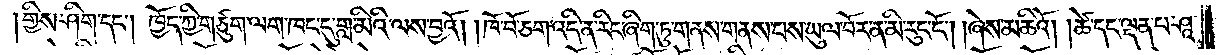།གྱིས་ཤིག་དང༌། ཁྱོད་ཀྱི་གཙུག་ལག་ཁང་དུ་གླ་མིའི་ལས་བྱའོ། །ཁོ་བོ་ཅག་འདི་ན་རིང་ཞིག་ཏུ་གནས་གནས་པས་ཡུལ་བོར་ན་མི་རུང་ངོ༌། །ཞེས་མཆིའོ། །ཚེ་དང་ལྡན་པ་ཤཱ་
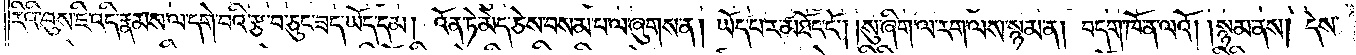རིའི་བུས་ཇི་འདི་རྣམས་ལ་དགེ་བའི་རྩ་བ་ཅུང་ཟད་ཡོད་དམ། འོན་ཏེ་མེད་ཅེས་བསམ་པ་ལ་ཞུགས་ན། ཡོད་པར་མཐོང་ངོ༌། །སུ་ཞིག་ལ་རག་ལས་སྙམ་ན། བདག་ཁོ་ན་ལའོ། །སྙམ་ནས། དེས་
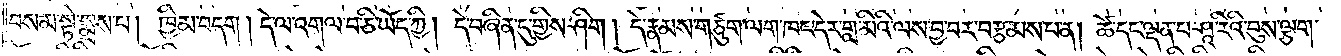བསམ་སྟེ་སྨྲས་པ། ཁྱིམ་བདག །དེ་ལ་འགལ་བ་ཅི་ཡོད་ཀྱི། དེ་བཞིན་དུ་གྱིས་ཤིག །དེ་རྣམས་གཙུག་ལག་ཁང་དེར་གླ་མིའི་ལས་བྱ་བར་བརྩམས་པ་ན། ཚེ་དང་ལྡན་པ་ཤཱ་རིའི་བུས་ལྕག་
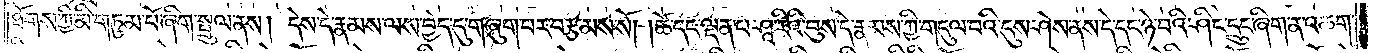ཐོགས་ཀྱི་མི་གཏུམ་པོ་ཞིག་སྤྲུལ་ནས། དེས་དེ་རྣམས་ལས་བྱེད་དུ་གཞུག་པར་བརྩམས་སོ། །ཚེ་དང་ལྡན་པ་ཤཱི་རིའི་བུས་དེ་རྣམས་ཀྱི་གདུལ་བའི་དུས་ཤེས་ནས་དེ་དང་ཉེ་བའི་ཤིང་དྲུང་ཞིག་ན་འཆག་
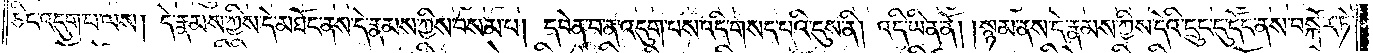ཅིང་འདུག་པ་ལས། དེ་རྣམས་ཀྱིས་དེ་མཐོང་ནས་དེ་རྣམས་ཀྱིས་བསམ་པ། དབེན་པ་ན་འདུག་པས་འདི་གསད་པའི་དུས་ནི། འདི་ཡིན་ནོ། །སྙམ་ནས་དེ་རྣམས་ཀྱིས་དེའི་དྲུང་དུ་དོང་ནས་བསྐོར་ཏེ་
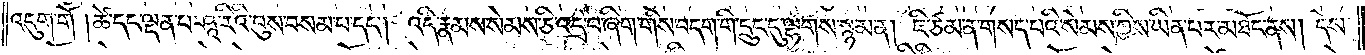འདུག་གོ །ཚེ་དང་ལྡན་པ་ཤཱ་རིའི་བུས་བསམ་པ་དང༌། འདི་རྣམས་སེམས་ཅི་འདྲ་བ་ཞིག་གིས་བདག་གི་དྲུང་དུ་ལྷགས་སྙམ་ན། ཇི་ཙམ་ན་གསད་པའི་སེམས་ཀྱིས་ཡིན་པར་མཐོང་ནས། དེས་
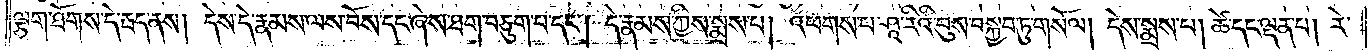ལྕག་ཐོགས་དེ་རྦད་ནས། དེས་དེ་རྣམས་ལས་བོས་དང་ཞེས་ཐག་བཅུག་པ་དང༌། དེ་རྣམས་ཀྱིས་སྨྲས་པ། འཕགས་པ་ཤཱ་རིའི་བུས་བསྐྱབ་ཏུ་གསོལ། །དེས་སྨྲས་པ། ཚེ་དང་ལྡན་པ། རེ་
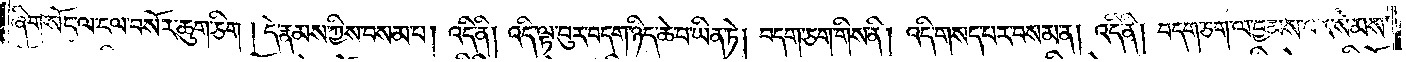ཞིག་སོང་ལ་ངལ་བསོར་ཆུག་ཅིག །དེ་རྣམས་ཀྱིས་བསམ་པ། འདི་ནི། འདི་ལྟ་བུར་བདག་ཉིད་ཆེ་བ་ཡིན་ཏེ། བདག་ཅག་གིས་ནི། འདི་གསད་པར་བསམ་ན། འདི་ནི། བདག་ཅག་ལ་བྱམས་པར་སེམས་
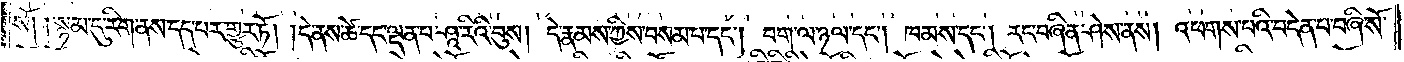སོ། །སྙམ་དུ་རིག་ནས་དད་པར་གྱུར་ཏོ། །དེ་ནས་ཚེ་དང་ལྡན་པ་ཤཱ་རིའི་བུས། དེ་རྣམས་ཀྱིས་བསམ་པ་དང༌། བག་ལ་ཉལ་དང༌། ཁམས་དང༌། རང་བཞིན་ཤེས་ནས། འཕགས་པའི་བདེན་པ་བཞི་སོ་
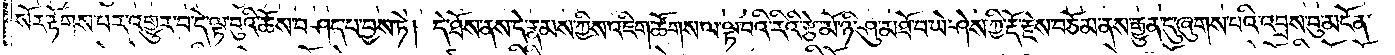སོར་རྟོགས་པར་འགྱུར་བ་དེ་ལྟ་བུའི་ཆོས་བཤད་པ་བྱས་ཏེ། དེ་ཐོས་ནས་དེ་རྣམས་ཀྱིས་འཇིག་ཚོགས་ལ་ལྟ་བའི་རིའི་རྩེ་མོ་ཉི་ཤུ་མཐོ་བ་ཡེ་ཤེས་ཀྱི་རྡོ་རྗེས་བཅོམ་ནས་རྒྱུན་དུ་ཞུགས་པའི་འབྲས་བུ་མངོན་
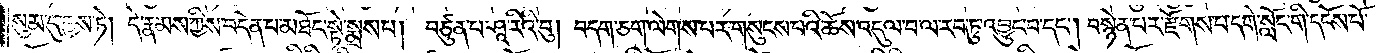སུམ་དུ་བྱས་ཏེ། དེ་རྣམས་ཀྱིས་བདེན་པ་མཐོང་སྟེ་སྨྲས་པ། བཙུན་པ་ཤཱ་རིའི་བུ། བདག་ཅག་ལེགས་པར་གསུངས་པའི་ཆོས་འདུལ་བ་ལ་རབ་ཏུ་འབྱུང་བ་དང༌། བསྙེན་པར་རྫོགས་པ་དགེ་སློང་གི་དངོས་པོ་
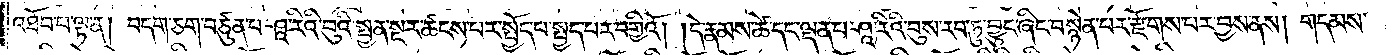འཐོབ་པ་ལྟ་ན། བདག་ཅག་བཙུན་པ་ཤཱ་རིའི་བུའི་སྤྱན་སྔར་ཚངས་པར་སྤྱོད་པ་སྤྱད་པར་བགྱིའོ། །དེ་རྣམས་ཚེ་དང་ལྡན་པ་ཤཱ་རིའི་བུས་རབ་ཏུ་བྱུང་ཞིང་བསྙེན་པར་རྫོགས་པར་བྱས་ནས། གདམས་
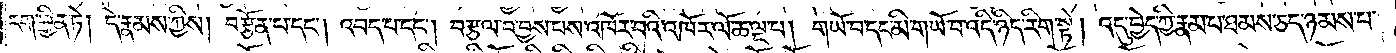ངག་བྱིན་ཏེ། དེ་རྣམས་ཀྱིས། བརྩོན་པ་དང༌། འབད་པ་དང༌། བརྩལ་བ་བྱས་པས་འཁོར་བའི་འཁོར་ལོ་ཆ་ལྔ་པ། གཡོ་བ་དང་མི་གཡོ་བ་འདི་ཉིད་རིག་སྟེ། འདུ་བྱེད་ཀྱི་རྣམ་པ་ཐམས་ཅད་ཉམས་པ་
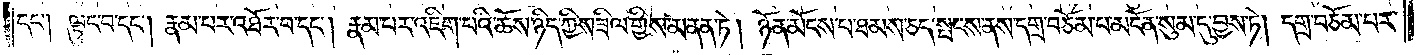དང༌། ལྟུང་བ་དང༌། རྣམ་པར་འཐོར་བ་དང༌། རྣམ་པར་འཇིག་པའི་ཆོས་ཉིད་ཀྱིས་ཟིལ་གྱིས་མནན་ཏེ། ཉོན་མོངས་པ་ཐམས་ཅད་སྤངས་ནས་དགྲ་བཅོམ་པ་མངོན་སུམ་དུ་བྱས་ཏེ། དགྲ་བཅོམ་པར་
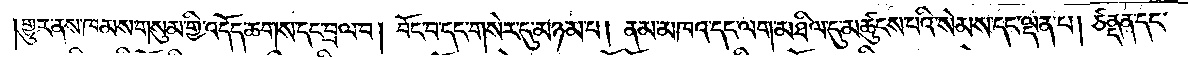གྱུར་ནས་ཁམས་གསུམ་གྱི་འདོད་ཆགས་དང་བྲལ་བ། བོང་བ་དང་གསེར་དུ་མཉམ་པ། ནམ་མཁའ་དང་ལག་མཐིལ་དུ་མཚུངས་པའི་སེམས་དང་ལྡན་པ། ཙནྡན་དང་
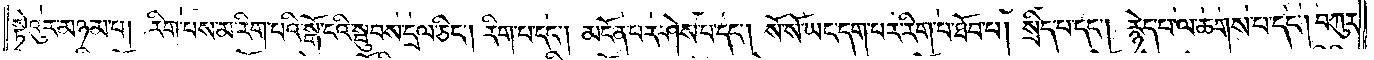སྟེའུར་མཉམ་པ། རིག་པས་མ་རིག་པའི་སྒོ་ངའི་སྦུབས་དྲལ་ཅིང༌། རིག་པ་དང༌། མངོན་པར་ཤེས་པ་དང༌། སོ་སོ་ཡང་དག་པར་རིག་པ་ཐོབ་པ། སྲིད་པ་དང༌། རྙེད་པ་ལ་ཆགས་པ་དང༌། བཀུར་
